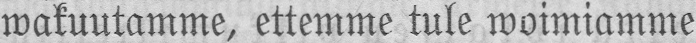wakuutamme, ettemme tule woimiamme
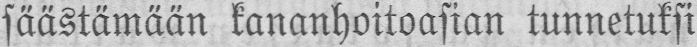säästämään kananhoitoasian tunnetuksi
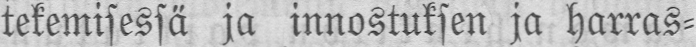tekemisessä ja innostuksen ja harras-
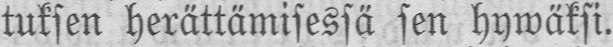tuksen herättämisessä sen hywäksi.
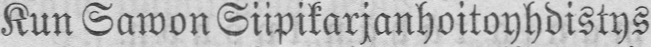Kun Sawon Siipikarjanhoitoyhdistys
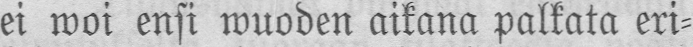ei woi ensi wuoden aikana palkata eri-
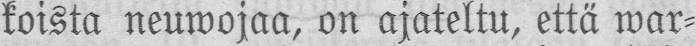koista neuwojaa, on ajateltu, että war-
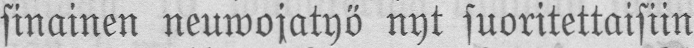sinainen neuwojatyö nyt suoritettaisiin
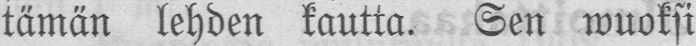tämän lehden kautta. Sen wuoksi
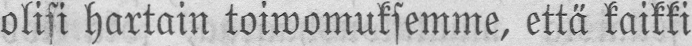olisi hartain toiwomuksemme, että kaikki
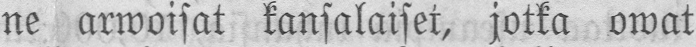ne arwoisat kansalaiset, jotka owat
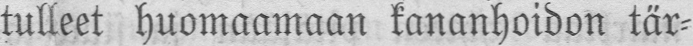tulleet huomaamaan kananhoidon tär-
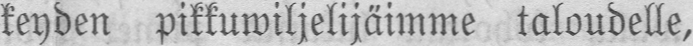keyden pikkuwiljelijäimme taloudelle,
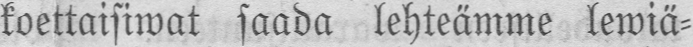koettaisiwat saada lehteämme lewiä-
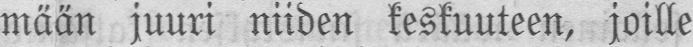mään juuri niiden keskuuteen, joille
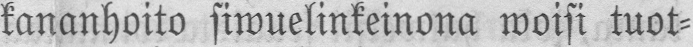kananhoito siwuelinkeinona woisi tuot-
